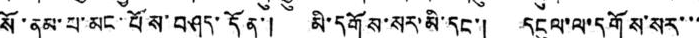སོ་ནམ་པ་མང་པོས་བཤད་དོན་། མི་དགོས་སར་མི་དང་། དངུལ་ལ་དགོས་སར་་་
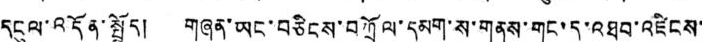དངུལ་འདོན་སྤྲོད། གཞན་ཡང་བཅིངས་བཀྲོལ་དམག་ས་གནས་གང་དུ་འཐབ་འཛིངས་
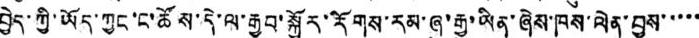བྱེད་ཀྱི་ཡོད་ཀྱང་ང་ཚོས་དེ་ལ་རྒྱབ་སྐྱོར་རོགས་རམ་ཞུ་རྒྱུ་ཡིན་ཞེས་ཁས་ལེན་བྱས་་་་་
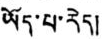ཡོད་པ་རེད།
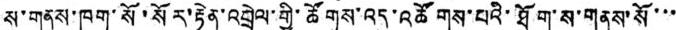ས་གནས་ཁག་སོ་སོར་རྟེན་འབྲེལ་གྱི་ཚོགས་འདུ་འཚོགས་པའི་ཐོག་ས་གནས་སོ་་་
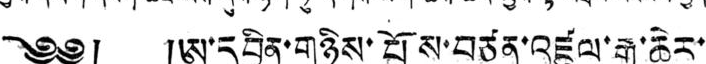༄༅། །ཨ་དབྱིན་གཉིས་པོས་བཙན་འཛུལ་རྒྱ་ཆེར་
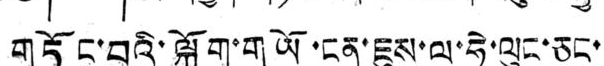གཏོང་བའི་ལྐོག་གཡོ་ངན་ཇུས་ལ་ཧེ་ལུང་ཅང་
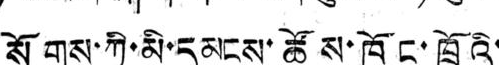སོགས་ཀྱི་མི་དམངས་ཚོས་ཁོང་ཁྲོའི་
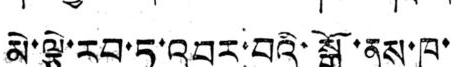མེ་ལྕེ་རབ་ཏུ་འབར་བའི་སྒོ་ནས་ཁ་
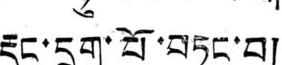རྡུང་དྲག་པོ་བཏང་བ།
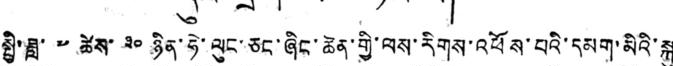སྤྱི་ཟླ་ ༧ ཚེས་ ༣༠ ཉིན་ཧེ་ལུང་ཅང་ཞིང་ཆེན་གྱི་ལས་རིགས་འཕོས་པའི་དམག་མིའི་སྐུ
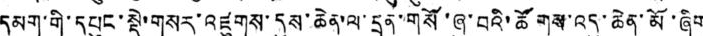དམག་གི་དཔུང་སྡེ་གསར་འཛུགས་དུས་ཆེན་ལ་དྲན་གསོ་ཞུ་བའི་ཚོགས་འདུ་ཆེན་མོ་ཞིག
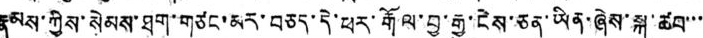རྣམས་ཀྱིས་སེམས་ཐག་གཙང་མར་བཅད་དེ་ཕར་རྒོལ་བྱ་རྒྱུ་ངེས་ཅན་ཡིན་ཞེས་སྐུ་ཚབ་་་
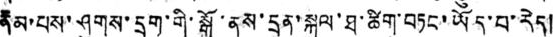རྣམ་པས་ཤུགས་དྲག་གི་སྒོ་ནས་དྲན་སྐུལ་ཐ་ཚིག་བཏང་ཡོད་པ་རེད།
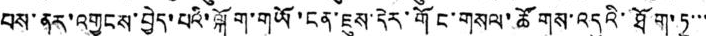པས་ནར་འགྱངས་བྱེད་པའི་ལྐོག་གཡོ་ངན་ཇུས་དེར་གོང་གསལ་ཚོགས་འདུའི་ཐོག་ཏུ་་་
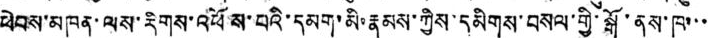ཕེབས་མཁན་ལས་རིགས་འཕོས་པའི་དམག་མི་རྣམས་ཀྱིས་དམིགས་བསལ་གྱི་སྒོ་ནས་ཁ་་་
